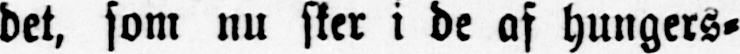det, som nu sker i de af hungers-
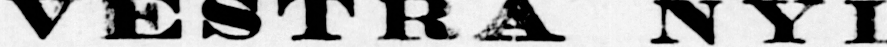VESTRA NYLAND.
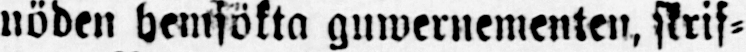nöden hemsökta guwernementen, skrif-
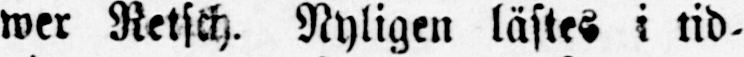wer Retsch. Nyligen lästes i tid-
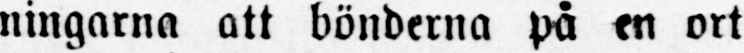ningarna att bönderna på en ort
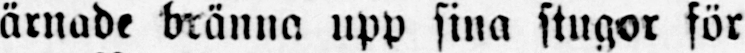ärnade bränna upp sina stugor för
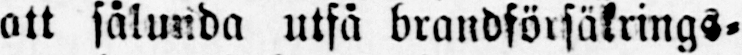att sålunda utfå brandförsäkrings-
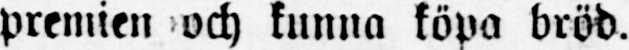premien och kunna köpa bröd.
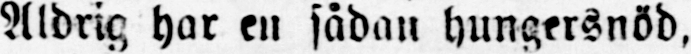Aldrig har en sådan hungersnöd,
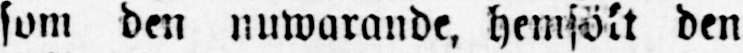som den nuwarande, hemsökt den
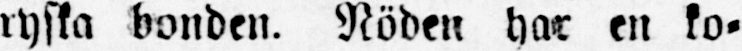ryska bonden. Nöden har en ko-
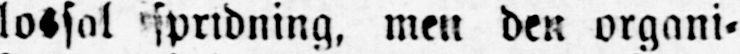lossal spridning, men den organi-
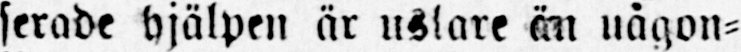serade hjälpen är uslare än någon-
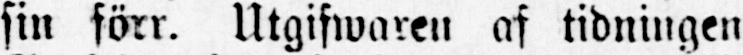sin förr. Utgifwaren af tidningen
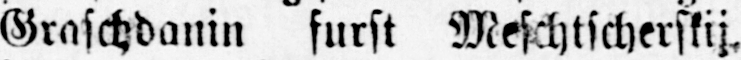Graschdanin furst Meschtscherskij,
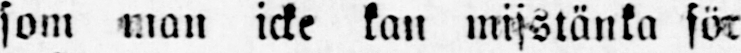som man icke kan misstänka för
